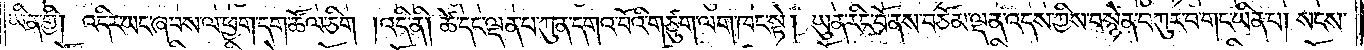ཡིན་གྱི། འདིར་ཡང་ཞབས་ལ་ཕྱག་དག་ཚོལ་ཅིག །འདི་ནི། ཚེ་དང་ལྡན་པ་ཀུན་དགའ་བོའི་གཙུག་ལག་ཁང་སྟེ། ཡུན་རིང་པོ་ནས་བཅོམ་ལྡན་འདས་ཀྱིས་བསྙེན་བཀུར་བ་གང་ཡིན་པ། སངས་
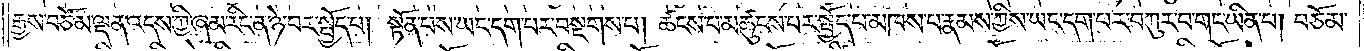རྒྱས་བཅོམ་ལྡན་འདས་ཀྱི་ཞམ་རིང་ན་ཉེ་བར་སྤྱོད་པ། སྟོན་པས་ཡང་དག་པར་བསྔགས་པ། ཚངས་པ་མཚུངས་པར་སྤྱོད་པ་མཁས་པ་རྣམས་ཀྱིས་ཡང་དག་པར་བཀུར་བ་གང་ཡིན་པ། བཅོམ་
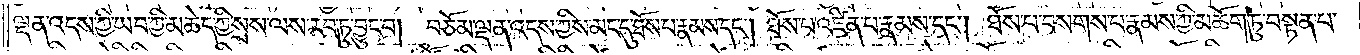ལྡན་འདས་ཀྱི་ཡབ་ཀྱི་མཆེད་ཀྱི་སྲས་ལས་རབ་ཏུ་བྱུང་བ། བཅོམ་ལྡན་འདས་ཀྱིས་མང་དུ་ཐོས་པ་རྣམས་དང༌། ཐོས་པ་འཛིན་པ་རྣམས་དང༌། ཐོས་པ་བསགས་པ་རྣམས་ཀྱི་མཆོག་ཏུ་བསྟན་པ་
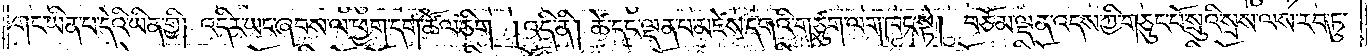གང་ཡིན་པ་དེའི་ཡིན་གྱི། འདིར་ཡང་ཞབས་ལ་ཕྱག་དག་ཚོལ་ཅིག །འདི་ནི། ཚེ་དང་ལྡན་པ་མཛེས་དགའི་གཙུག་ལག་ཁང་སྟེ། བཅོམ་ལྡན་འདས་ཀྱི་གཅུང་པོ་སྲུའི་སྲས་ལས་རབ་ཏུ་
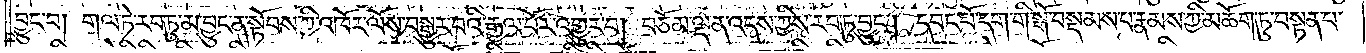བྱུང་བ། གལ་ཏེ་རབ་ཏུ་མ་བྱུང་ན་སྟོབས་ཀྱི་འཁོར་ལོས་བསྒྱུར་བའི་རྒྱལ་པོར་འགྱུར་བ། བཅོམ་ལྡན་འདས་ཀྱིས་རབ་ཏུ་བྱུང༌། དབང་པོ་དག་གི་སྒོ་བསྡམས་པ་རྣམས་ཀྱི་མཆོག་ཏུ་བསྟན་པ་
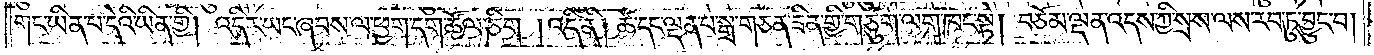གང་ཡིན་པ་དེའི་ཡིན་གྱི། འདིར་ཡང་ཞབས་ལ་ཕྱག་དག་ཚོལ་ཅིག །འདི་ནི། ཚེ་དང་ལྡན་པ་སྒྲ་གཅན་ཟིན་གྱི་གཙུག་ལག་ཁང་སྟེ། བཅོམ་ལྡན་འདས་ཀྱི་སྲས་ལས་རབ་ཏུ་བྱུང་བ།
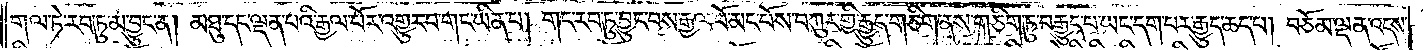གལ་ཏེ་རབ་ཏུ་མ་བྱུང་ན། མཐུ་དང་ལྡན་པའི་རྒྱལ་པོར་འགྱུར་བ་གང་ཡིན་པ། གང་རབ་ཏུ་བྱུང་བས་རྒྱལ་པོ་མང་པོས་བཀུར་གྱི་རྒྱུད་གཅིག་ནས་གཅིག་ཏུ་བརྒྱུད་པ་ཡང་དག་པར་རྒྱུད་ཆད་པ། བཅོམ་ལྡན་འདས་
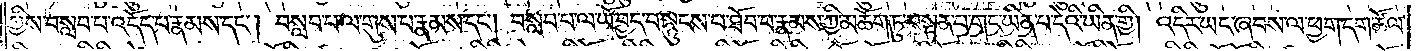ཀྱིས་བསླབ་པ་འདོད་པ་རྣམས་དང༌། བསླབ་པ་ལ་གུས་པ་རྣམས་དང༌། བསླབ་པ་ལ་ཡོ་བྱད་བསྙུངས་པ་ཐོབ་པ་རྣམས་ཀྱི་མཆོག་ཏུ་བསྟན་པ་གང་ཡིན་པ་དེའི་ཡིན་གྱི། འདིར་ཡང་ཞབས་ལ་ཕྱག་དག་ཚོལ་
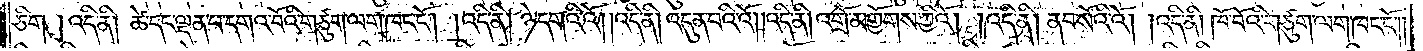ཅིག །འདི་ནི། ཚེ་དང་ལྡན་པ་དགའ་བོའི་གཙུག་ལག་ཁང་ངོ༌། །འདི་ནི། ཉེ་དགའི་འོ། །འདི་ནི། འདུན་བའི་འོ། །འདི་ནི། འགྲོ་མགྱོགས་ཀྱིའོ། །འདི་ནི། ནབ་སོའི་འོ། །འདི་ནི། ཁོ་བོའི་གཙུག་ལག་ཁང་ངོ༌༎
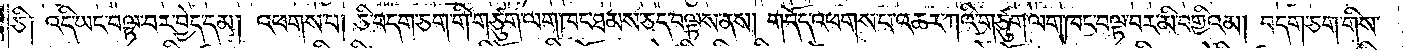ཅི༑ འདི་ཡང་བལྟ་བར་བྱེད་དམ། འཕགས་པ། ཅི་བདག་ཅག་གི་གཙུག་ལག་ཁང་ཐམས་ཅད་བལྟས་ནས། གདོད་འཕགས་པ་འཆར་ཀའི་གཙུག་ལག་ཁང་བལྟ་བར་མི་བགྱིའམ། བདག་ཅག་གིས་
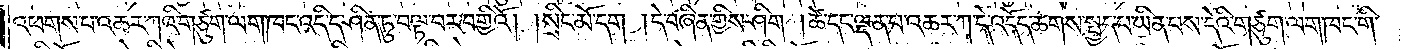འཕགས་པ་འཆར་ཀའི་གཙུག་ལག་ཁང་འདི་དག་ཤིན་ཏུ་བལྟ་བར་བགྱིའོ། །སྲིང་མོ་དག །དེ་བཞིན་གྱིས་ཤིག །ཚེ་དང་ལྡན་པ་འཆར་ཀ་དེ་འདོད་ཆགས་སྤྱད་པ་ཡིན་པས་དེའི་གཙུག་ལག་ཁང་གི་
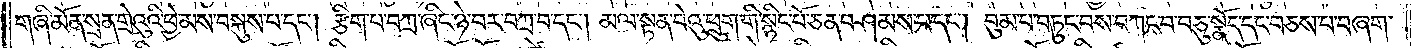གཞི་མོན་སྲན་གྲེའུའི་ཕྱེ་མས་བསྐུས་པ་དང༌། རྩིག་པ་བཀྲ་ཞིང་ཉེ་བར་བཀྲ་བ་དང༌། མལ་སྟན་བེའུ་ཕྲུག་གི་སྙིང་པོ་ཅན་བཤམས་པ་དང༌། བུམ་པ་བཏུང་བས་བཀང་བ་བཅུ་སྣོད་དང་བཅས་པ་བཞག་
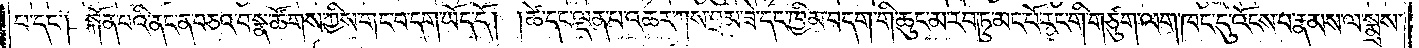པ་དང༌། སྐོན་པའི་ནང་ན་བཅའ་བ་སྣ་ཚོགས་ཀྱིས་གང་བ་དག་ཡོད་དོ། །ཚེ་དང་ལྡན་པ་འཆར་ཀས་བྲམ་ཟེ་དང་ཁྱིམ་བདག་གི་ཆུང་མ་རབ་ཏུ་མང་པོ་རང་གི་གཙུག་ལག་ཁང་དུ་འོངས་པ་རྣམས་ལ་སྨྲས་
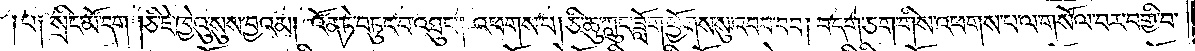པ༑ སྲིང་མོ་དག །ཅི་ཇེ་ཁྱེའུ་སུས་བྱའམ། འོན་ཏེ་བཏུང་བ་འཐུང༌། འཕགས་པ། ཅི་ཆུ་ཀླུང་ཟློག་ཕྱོགས་སུ་འབབ་བབ། བདག་ཅག་གིས་འཕགས་པ་ལ་གསོལ་བར་བགྱི་བ་
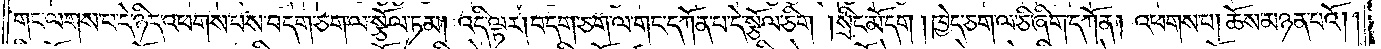གང་ལགས་པ་དེ་ཉིད་འཕགས་པས་བདག་ཅག་ལ་སྩོལ་ཏམ། འདི་ལྟར། བདག་ཅག་ལ་གང་དཀོན་པ་དེ་སྩོལ་ཅིག །སྲིང་མོ་དག །ཁྱེད་ཅག་ལ་ཅི་ཞིག་དཀོན། འཕགས་པ། ཆོས་མཉན་པའོ། །
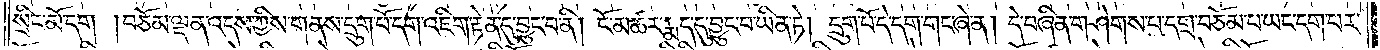སྲིང་མོ་དག །བཅོམ་ལྡན་འདས་ཀྱིས་གནས་དྲུག་པོ་དག་འཇིག་རྟེན་དུ་བྱུང་བ་ནི། ངོ་མཚར་རྨད་དུ་བྱུང་བ་ཡིན་ཏེ། དྲུག་པོ་དེ་དག་གང་ཞེ་ན། དེ་བཞིན་གཤེགས་པ་དགྲ་བཅོམ་པ་ཡང་དག་པར་
